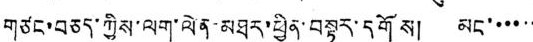གཙང་བཅད་ཀྱིས་ལག་ལེན་མཐར་ཕྱིན་བསྟར་དགོས། མང་་་་་་
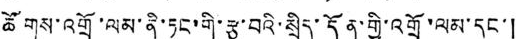ཚོགས་འགྲོ་ལམ་ནི་ཏང་གི་རྩ་བའི་སྲིད་དོན་གྱི་འགྲོ་ལམ་དང་།
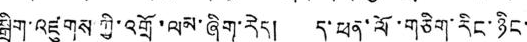སྒྲིག་འཛུགས་ཀྱི་གྲོ་ལམ་ཞིག་རེད། ད་ཕན་ལོ་གཅིག་རིང་ཉིང་
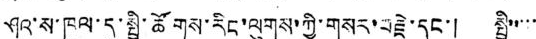ཤའ་ས་ཁུལ་དུ་སྤྱི་ཚོགས་རིང་ལུགས་ཀྱི་གསར་བརྗེ་དང་། སྤྱི་་་་་
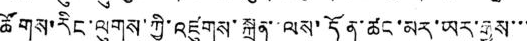ཚོགས་རིང་ལུགས་ཀྱི་འཛུགས་སྐྲུན་ལས་དོན་ཚང་མར་ཡར་རྒྱས་་་
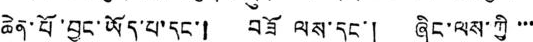ཆེན་པོ་བྱུང་ཡོད་པ་དང་། བཟོ ལས་དང་། ཞིང་ལས་ཀྱི་་་
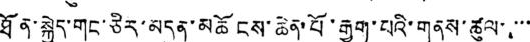ཐོན་སྐྱེད་གང་ཅིར་མདུན་ཆོངས་ཆེན་པོ་རྒྱག་པའི་གནས་ཚུལ་་་་
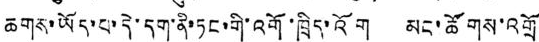ཆགས་ཡོད་པ་དེ་དག་ནི་ཏང་གི་འགོ་ཁྲིད་འོག མང་ཚོགས་འགྲོ
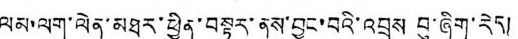ལམ་ལག་ལེན་མཐར་ཕྱིན་བསྟར་ནས་བྱུང་བའི་འབྲས བུ་ཞིག་རེད།
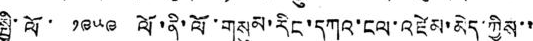སྤྱི་ལོ་ ༡༩༥༩ ལོ་ནི་ལོ་གསུམ་རིང་དཀའ་ངལ་འཛེམ་མེད་ཀྱིས་་
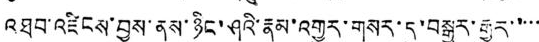འཐབ་འཛིངས་བྱས་ནས་ཉིང་ཤའི་རྣམ་འགྱུར་གསར་དུ་བསྒྱུར་རྒྱུར་་་་་
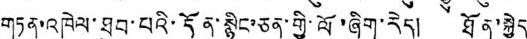གཏན་འཁེལ་ཐུབ་པའི་དོན་སྙིང་ཅན་གྱི་ལོ་ཞིག་རེད། ཐོན་སྐྱེད་
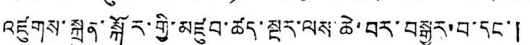འཛུགས་སྐྲུན་སྐོར་གྱི་མཛུབ་ཚད་སྔར་ལས་ཆེ་བར་བསྒྱུར་བ་དང་།
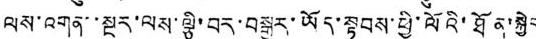ལས་འགན་་སྔར་ལས་ལྕི་བར་བསྒྱུར་ཡོད་སྟབས་ཕྱི་ལོའི་ཐོན་སྐྱེད
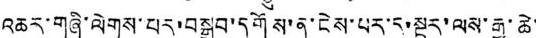འཆར་གཟི་ལེགས་པར་བསྒྲུབ་དགོས་ན་ངེས་པར་དུ་སྔར་ལས་རྒྱ་ཆེ་
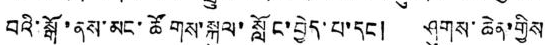བའི་སྒོ་ནས་མང་ཚོགས་སྐུལ་སློང་བྱེད་པ་དང། ཤུགས་ཆེན་གྱིས
